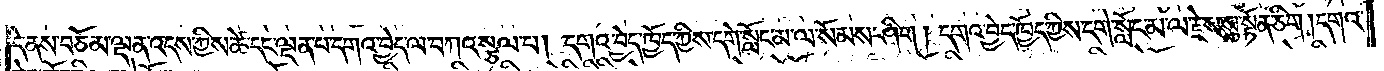དེ་ནས་བཅོམ་ལྡན་འདས་ཀྱིས་ཚེ་དང་ལྡན་པ་དགའ་བྱེད་ལ་བཀའ་སྩལ་པ། དགའ་བྱེད་ཁྱོད་ཀྱིས་དགེ་སློང་མ་ལ་སོམས་ཤིག །དགའ་བྱེད་ཁྱོད་ཀྱིས་དགེ་སློང་མ་ལ་རྗེས་སུ་སྟོན་ཅིག །དགའ་
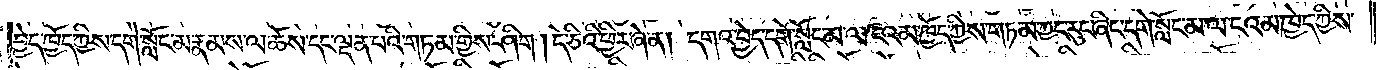བྱེད་ཁྱོད་ཀྱིས་དགེ་སློང་མ་རྣམས་ལ་ཆོས་དང་ལྡན་པའི་གཏམ་གྱིས་ཤིག །དེ་ཅིའི་ཕྱིར་ཞེ་ན། དགའ་བྱེད་དགེ་སློང་མ་ལ་ངའམ་ཁྱོད་ཀྱིས་གཏམ་ཀྱང་རུང་ཞིང་དགེ་སློང་མ་ལ་ངའམ་ཁྱེད་ཀྱིས་
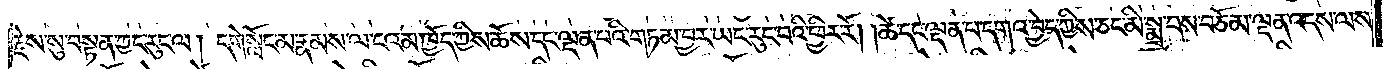རྗེས་སུ་བསྟན་ཀྱང་རུང་ལ། དགེ་སློང་མ་རྣམས་ལ་ངའམ་ཁྱོད་ཀྱིས་ཆོས་དང་ལྡན་པའི་གཏམ་བྱར་ཡང་རུང་བའི་ཕྱིར་རོ། །ཚེ་དང་ལྡན་པ་དགའ་བྱེད་ཀྱིས་ཅང་མི་སྨྲ་བས་བཅོམ་ལྡན་འདས་ལས་
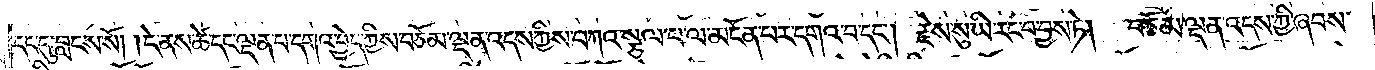དང་དུ་བླངས་སོ། །དེ་ནས་ཚེ་དང་ལྡན་པ་དགའ་བྱེད་ཀྱིས་བཅོམ་ལྡན་འདས་ཀྱིས་བཀའ་སྩལ་པ་ལ་མངོན་པར་དགའ་བ་དང༌། རྗེས་སུ་ཡི་རང་བ་བྱས་ཏེ། བཅོམ་ལྡན་འདས་ཀྱི་ཞབས་
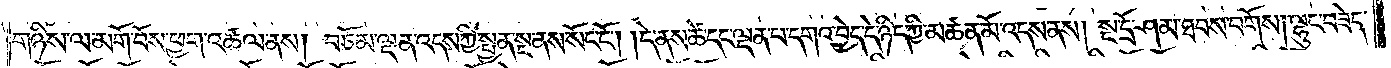གཉིས་ལ་མགོ་བོས་ཕྱག་འཚལ་ནས། བཅོམ་ལྡན་འདས་ཀྱི་སྤྱན་སྔ་ནས་སོང་ངོ༌། །དེ་ནས་ཚེ་དང་ལྡན་པ་དགའ་བྱེད་དེ་ཉིད་ཀྱི་མཚན་མོ་འདས་ནས། སྔ་དྲོ་ཤམ་ཐབས་བགོས། ལྷུང་བཟེད་
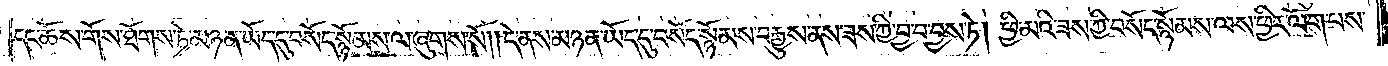དང་ཆོས་གོས་ཐོགས་ཏེ་མཉན་ཡོད་དུ་བསོད་སྙོམས་ལ་ཞུགས་སོ། །དེ་ནས་མཉན་ཡོད་དུ་བསོད་སྙོམས་བརྒྱུས་ནས་ཟས་ཀྱི་བྱ་བ་བྱས་ཏེ། ཕྱི་མའི་ཟས་ཀྱི་བསོད་སྙོམས་ལས་ཕྱིར་ལོག་པས་
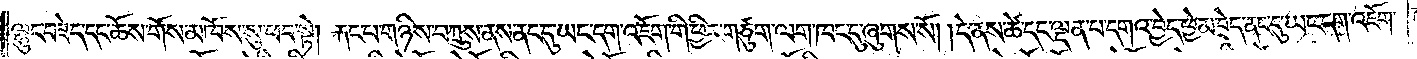ལྷུང་བཟེད་དང་ཆོས་གོས་མཁོས་སུ་ཕབ་སྟེ། རྐང་པ་གཉིས་བཀྲུས་ནས་ནང་དུ་ཡང་དག་འཇོག་གི་ཕྱིར་གཙུག་ལག་ཁང་དུ་ཞུགས་སོ། །དེ་ནས་ཚེ་དང་ལྡན་པ་དགའ་བྱེད་ཕྱེམ་བྲེད་ནང་དུ་ཡང་དག་འཇོག་
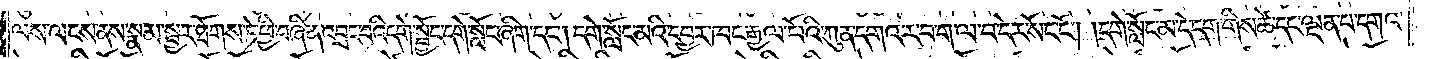ལས་ལངས་ནས་སྣམ་སྦྱར་ཐོགས་ཏེ་ཕྱི་བཞིན་འབྲང་བའི་དགེ་སྦྱོང་དགེ་སློང་ཞིག་དང༌། དགེ་སློང་མའི་དབྱར་ཁང་རྒྱལ་པོའི་ཀུན་དགའ་ར་བ་ག་ལ་བ་དེར་སོང་ངོ༌། །དགེ་སློང་མ་དེ་དག་གིས་ཚེ་དང་ལྡན་པ་དགའ་
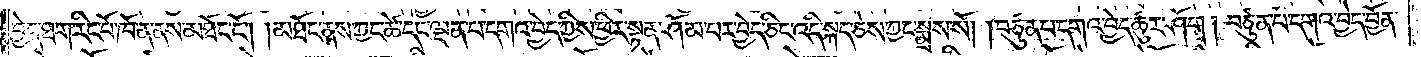བྱེད་ཐག་རིང་པོ་ཁོ་ན་ནས་མཐོང་ངོ༌། །མཐོང་ནས་ཀྱང་ཚེ་དང་ལྡན་པ་དགའ་བྱེད་ཀྱིས་ཕྱིར་སྟན་ཤོམ་པར་བྱེད་ཅིང་འདི་སྐད་ཅེས་ཀྱང་སྨྲས་སོ། །བཙུན་པ་དགའ་བྱེད་ཚུར་ཤོག། བཙུན་པ་དགའ་བྱེད་བྱོན་
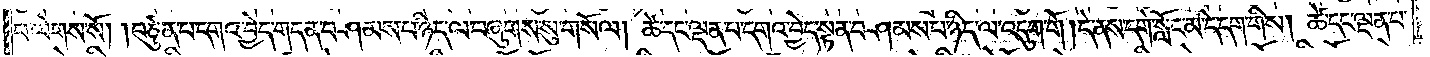པ་ལེགས་སོ། །བཙུན་པ་དགའ་བྱེད་གདན་བཤམས་པ་ཉིད་ལ་བཞུགས་སུ་གསོལ། ཚེ་དང་ལྡན་པ་དགའ་བྱེད་སྟན་བཤམས་པ་ཉིད་ལ་འདུག་གོ །དེ་ནས་དགེ་སློང་མ་དེ་དག་གིས། ཚེ་དང་ལྡན་པ་
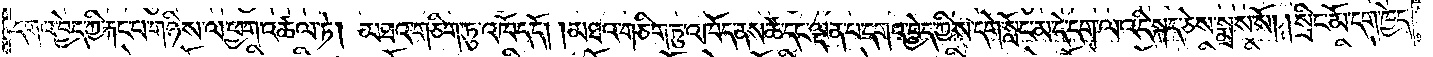དགའ་བྱེད་ཀྱི་རྐང་པ་གཉིས་ལ་ཕྱག་འཚལ་ཏེ། མཐའ་གཅིག་ཏུ་འཁོད་དོ། །མཐའ་གཅིག་ཏུ་འཁོད་ནས་ཚེ་དང་ལྡན་པ་དགའ་བྱེད་ཀྱིས་དགེ་སློང་མ་དེ་དག་ལ་འདི་སྐད་ཅེས་སྨྲས་སོ། །སྲིང་མོ་དག་ཁྱེད་
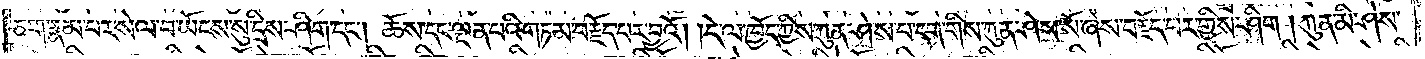ཅག་རྣམ་བར་སེལ་བ་ཡོངས་སུ་དྲིས་ཤིག་དང༌། ཆོས་དང་ལྡན་པའི་གཏམ་བརྗོད་པར་བྱའོ། །དེ་ལ་ཁྱོད་ཀྱིས་ཀུན་ཤེས་པ་དག་གིས་ཀུན་ཤེས་སོ་ཞེས་བརྗོད་པར་གྱིས་ཤིག །ཀུན་མི་ཤེས་
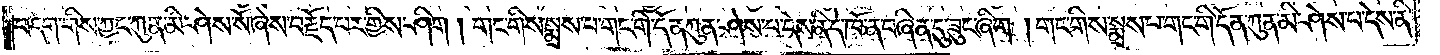པ་དག་གིས་ཀྱང་ཀུན་མི་ཤེས་སོ་ཞེས་བརྗོད་པར་གྱིས་ཤིག །གང་གིས་སྨྲས་པ་གང་གི་དོན་ཀུན་ཤེས་པ་དེས་ནི་དེ་ཁོ་ན་བཞིན་དུ་ཟུང་ཞིག །གང་གིས་སྨྲས་པ་གང་གི་དོན་ཀུན་མི་ཤེས་པ་དེས་ནི་
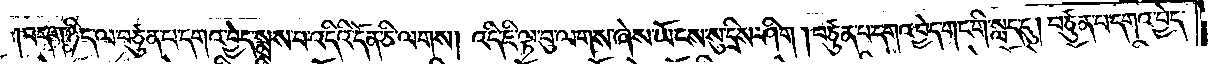བདག་ཉིད་ལ་བཙུན་པ་དགའ་བྱེད་སྨྲས་པ་འདིའི་དོན་ཅི་ལགས། འདི་ཇི་ལྟ་བུ་ལགས་ཞེས་ཡོངས་སུ་དྲིས་ཤིག །བཙུན་པ་དགའ་བྱེད་གང་གི་སླད་དུ། བཙུན་པ་དགའ་བྱེད་
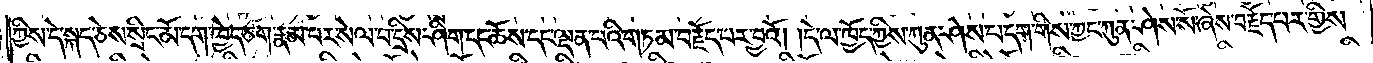ཀྱིས་དེ་སྐད་ཅེས་སྲིང་མོ་དག་ཁྱེད་ཅག་རྣམ་པར་སེལ་བ་དྲིས་ཤིག་དང་ཆོས་དང་ལྡན་པའི་གཏམ་བརྗོད་པར་བྱའོ། །དེ་ལ་ཁྱོད་ཀྱིས་ཀུན་ཤེས་པ་དག་གིས་ཀྱང་ཀུན་ཤེས་སོ་ཞེས་བརྗོད་པར་གྱིས་
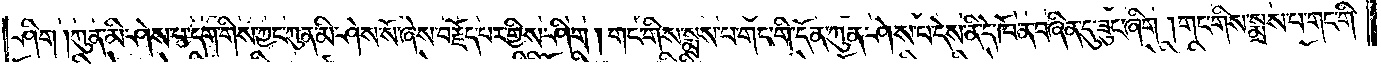ཤིག །ཀུན་མི་ཤེས་པ་དག་གིས་ཀྱང་ཀུན་མི་ཤེས་སོ་ཞེས་བརྗོད་པར་གྱིས་ཤིག །གང་གིས་སྨྲས་པ་གང་གི་དོན་ཀུན་ཤེས་པ་དེས་ནི་དེ་ཁོ་ན་བཞིན་དུ་ཟུང་ཞིག །གང་གིས་སྨྲས་པ་གང་གི་
